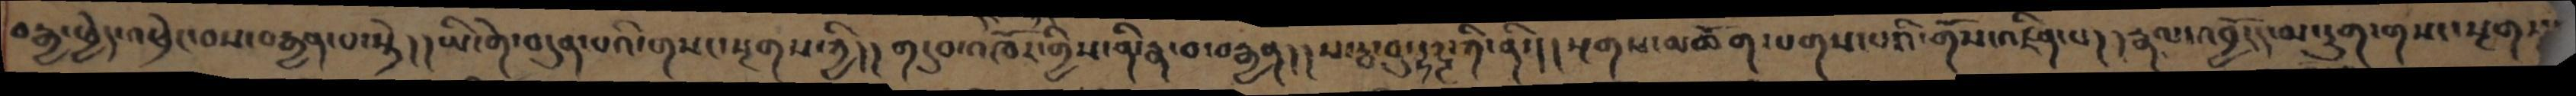བརྒྱ་ཕྱེད་འཕྲེང་བས་བརྒྱན་པ་སྟེ། །ཡི་གེ་བདུན་པའི་གསང་སྔགས་ཀྱི། །གདུབ་འཁོར་གྱིས་ནི་རྣ་བ་བརྒྱན། ། ས་རྦ་བུ་དྷཌྚ་ཀི་ནི་། །སྔགས་མཆོག་པགས་པའི་གོས་འཛིན་པ། །རྣལ་འབྱོརད་མ་དྲུག་གསང་སྔགས་
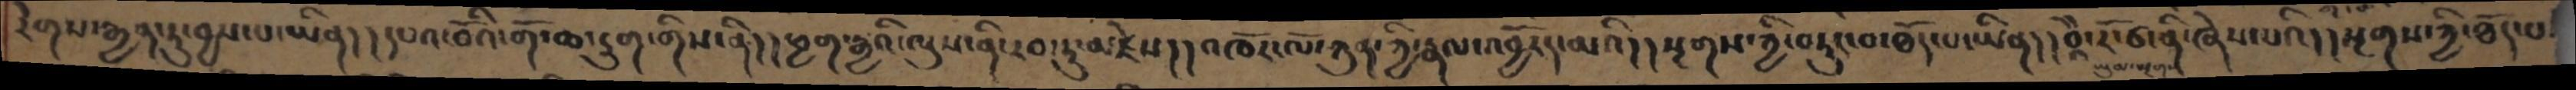རེགས་རྒྱན་ཏུ་བྱས་པ་ཡིན།། དཔའ་བོའི་གོ་ཆ་དྲུག་གིས་ནི།། ཕྱག་རྒྱའི་ལུས་ནི་རབ་ཏུ་མཛེས།། འཁོར་ལོ་ཀུན་ཀྱི་རྣལ་འབྱོརད་མའི།། སྔགས་ཀྱི་བཏུང་བ་ཐོད་པ་ཡིན།། བཱཻ་རོ་ཙ་ནི་ཞེས་པའི།། སྔགས་ཀྱི་ཐོད་པ་
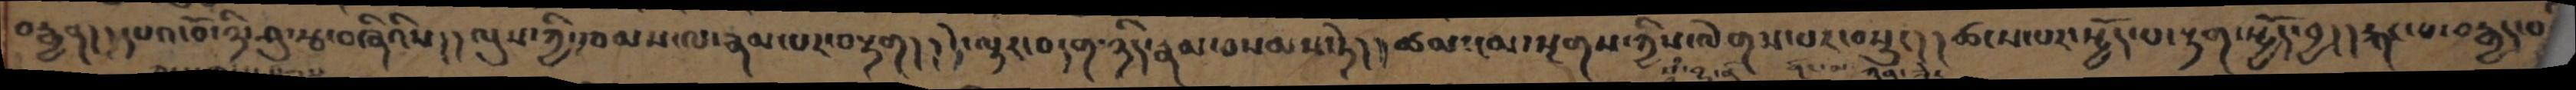བརྒྱན།། དཔའ་བོ་ཉི་ཤུ་རྩ་བཞིའིས།། ལུས་ཀྱི་ཁམས་ལ་རྣམ་པར་བརྟག།། དེ་ལྟར་བདག་ཉིད་རྣམ་བསམས་ཏེ།། ཚམ་ངམ་སྔགས་ཀྱིས་ལེགས་པར་བསྲུང།། ཚངས་པར་སྤྱོད་པ་རྟག་སྤྱོད་བྱ།། རྐང་པ་བརྒྱད་བ
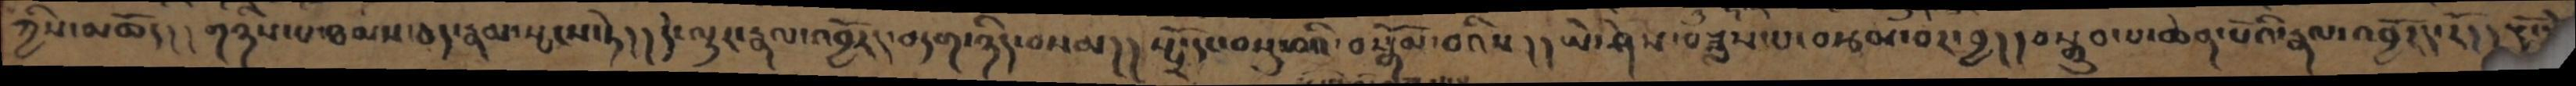ཀྱིས་མཆོད། །གཉིས་པ་ཐམས་ཅད་རྣམ་སྤངས་ཏེ།། དེ་ལྟར་རྣལ་འབྱོརད་བདག་ཉིད་བསམ།། སྤྲོ་དང་བསྡུ་བའི་བསྒོམ་བའིས།། ཡེ་ཤེས་བཟླས་པ་བརྩམ་པར་བྱ།། བསྒྲུབ་པ་ཆེན་པོའི་རྣལ་འབྱོརད་རོ།། རྡོ་རྗེ་
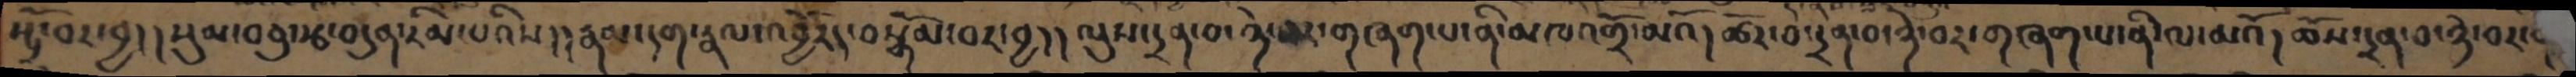སྤྲོ་བར་བྱ།། སུམ་བཅུ་རྩ་བདུན་རིམ་པའིས།། རྣམ་དག་རྣལ་འབྱོརད་བསྒོམ་བར་བྱ།། ལུས་དྲན་པ་ཉེ་བར་གཞག་པ་ནི་མཁའགྲོ་མའོ། ཚོར་བ་དྲན་པ་ཉེ་བར་གཞག་པ་ནི་ལ་མའོ། ཆོས་དྲན་པ་ཉེ་བར་
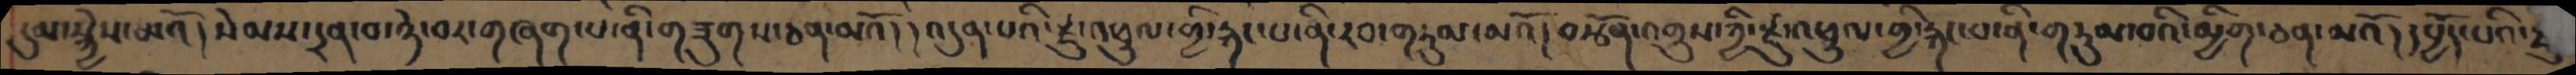དུམ་སྐྱེས་མའོ།སེམས་དྲན་བ་ཉེ་བར་གཞག་པ་ནི་གཟུགས་ཅན་མའོ།།འདུན་པའི་རྫུ་འཕྲུལ་གྱི་རྐང་པ་ནི་རབ་གཏུམ་མའོ།བརྩོན་འགྲུས་ཀྱི་རྫུ་འཕྲུལ་གྱི་རྐང་པ་ནི་གཏུམ་བའི་མྱིག་ཅན་མའོ།དཔྱོད་པའི་ཐུ
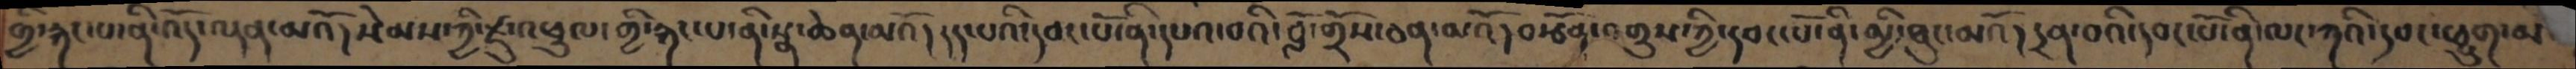གྱི་རྐང་པ་ནི་འོད་ལྡན་མའོ།སེམས་ཀྱི་རྫུ་འཕྲུལ་གྱི་རྐང་པ་ནི་སྣ་ཆེན་མའོ།དད་པའི་དབང་པོ་ནི་དཔའ་བའི་བློ་གྲོས་ཅན་མའོ།བརྩོན་འགྲུས་ཀྱི་དབང་པོ་ནི་མྱི་ཐུང་མའོ།དྲན་བའི་དབང་པོ་ནི་ལང་ཀའི་དབང་ཕྱུག་མ་
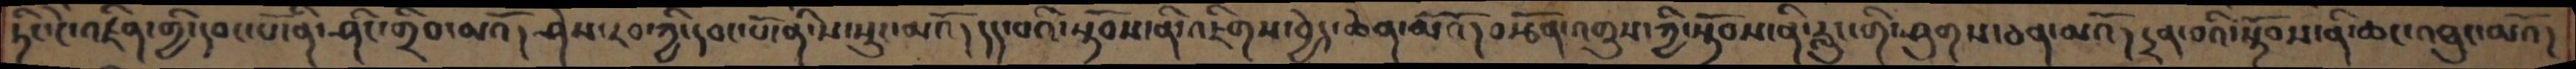ཏིང་ངེ་འཛིན་གྱི་དབང་པོ་ནི་ཤིང་གྲིབ་མའོ། ཤེས་རབ་ཀྱི་དབང་པོ་ནི་ས་སྲུང་མའོ། དད་པའི་སྟོབས་ནི་འཇིགས་བྱེད་ཆེན་མའོ།བརྩོན་འགྲུས་ཀྱི་སྟོབས་ནི་རླུང་གི་ཤུགས་ཅན་མའོ།དྲན་བའི་སྟོབས་ནི་ཆང་འཐུང་མའོ།
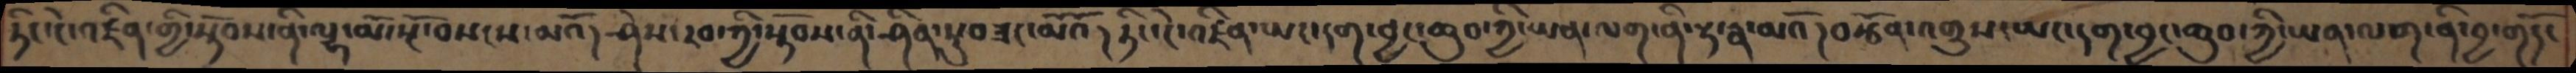ཏིང་ངེ་འཛིན་གྱི་སྟོབས་ནི་ལྷ་མོ་སྔོ་བསངས་མའོ། ཤེས་རབ་ཀྱི་སྟོབས་ནི་ཤིན་ཏུ་བཟང་མོའོ། ཏིང་ངེ་འཛིན་ཡང་དག་བྱང་ཆུབ་ཀྱི་ཡན་ལག་ནི་རྟ་རྣ་མའོ། བརྩོན་འགྲུས་ཡང་དག་བྱང་ཆུབ་ཀྱི་ཡན་ལག་ནི་བྱ་གདོང
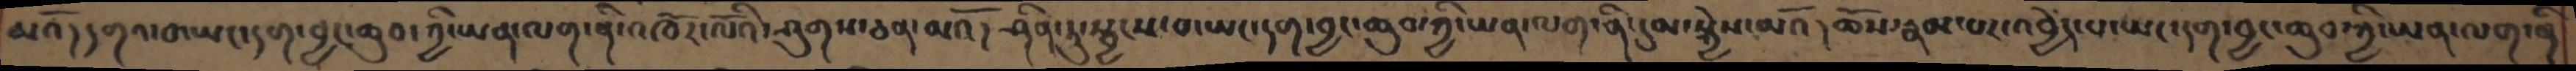མའོ། དགའ་བ་ཡང་དག་བྱང་ཆུབ་ཀྱི་ཡན་ལག་ནི་འཁོར་ལོའི་ཤུགས་ཅན་མའོ། ཤིན་ཏུ་སྦྱངས་བ་ཡང་དག་བྱང་ཆུབ་ཀྱི་ཡན་ལག་ནི་དུམ་སྐྱེས་མའོ། ཆོས་རྣམ་པར་འའབྱེད་པ་ཡང་དག་བྱང་ཆུབ་ཀྱི་ཡན་ལག་ནི་
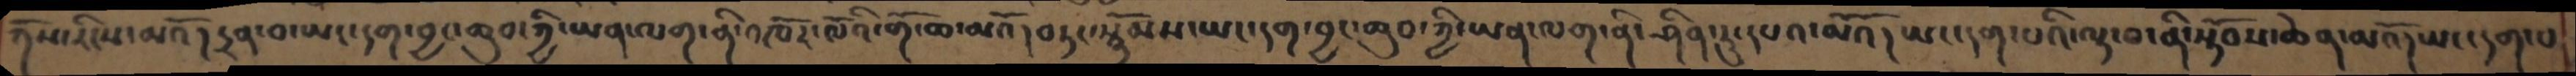ཀོས་རིངས་མའོ། དྲན་བ་ཡང་དག་བྱང་ཆུབ་ཀྱི་ཡན་ལག་ནི་འཁོར་ལོའི་གོ་ཆ་མའོ། བཏང་སྙོམས་ཡང་དག་བྱང་ཆུབ་ཀྱི་ཡན་ལག་ནི་ཤིན་ཏུ་དཔའ་མའོ། ཡང་དག་པའི་ལྟ་བ་ནི་སྟོབས་ཆེན་མའོ། ཡང་དག་པ་
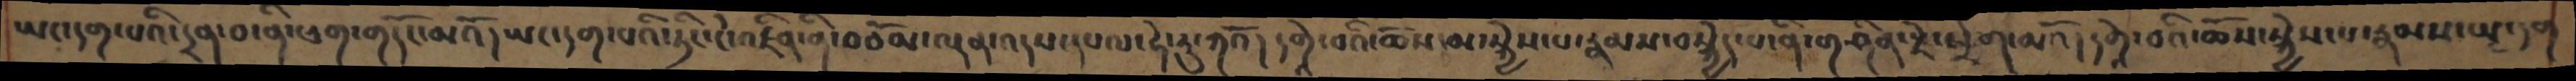ཡང་དག་པའི་དྲན་པ་ནི་ཕག་གདོང་མའོ། ཡང་དག་པའི་ཏིང་ངེ་འཛིན་ནི་བཅོམ་ལྡན་འདས་དཔལ་ཧེ་རུ་ཀའོ། དགེའ་བའི་ཆོས་མ་སྐྱེས་པ་རྣམས་བསྐྱེད་པ་ནི་གཤིན་རྗེ་ཕྲེག་མའོ། དགེའ་བའི་ཆོས་སྐྱེས་པ་རྣམས་ཡང་དག
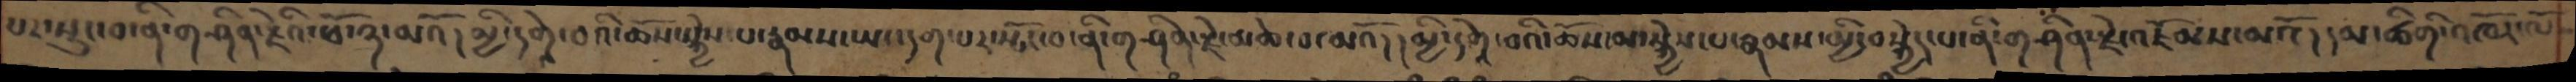པར་སྲུང་བ་ནི་གཤིན་རྗེའི་ཕོ་ཉ་མའོ། མྱི་དགེའ་བའི་ཆོས་སྐྱེས་པ་རྣམས་ཡང་དག་པར་སྤོང་བ་ནི་གཤིན་རྗེ་མཆེ་བ་མའོ།། མྱི་དགེའ་བའི་ཆོས་མ་སྐྱེས་པ་རྣམས་མྱི་བསྐྱེད་པ་ནི་གཤིན་རྗེ་འཇོམས་མའོ། དམ་ཚིགི་འཁོར་ལོ་
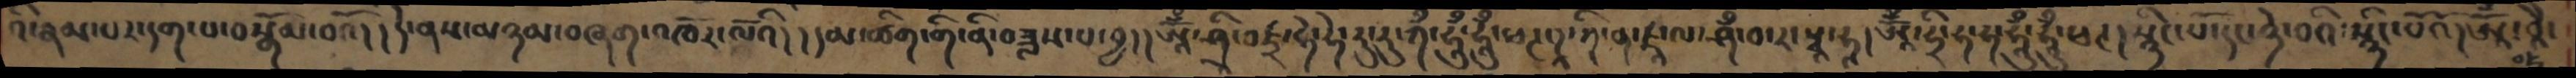འི་རྣམ་པར་དག་པ་བསྒོམ་བའོ། །དེ་ནས་མཉམ་བཞག་འཁོར་ལོའི། །དམ་ཚིག་གི་ནི་བཟླས་པ་བྱ། །ཨཱོྃ་ཤྲི་ཛྲ་ཧེ་ཧེ་རུ་རུ་ཀྃ་ཧཱུྃ་ཧཱུྃ་ཕཊ་ཌཱ་ཀི་ན་ཛཱ་ལ་ཤྃ་བ་ར་སྭཱ་ཧཱ།ཨཱོྃ་ཧྲི་ཧ་ཧ་ཧཱུྃ་ཧཱུྃ་ཕཊ།སྙིང་པོ་དང་ཉེ་བའི་སྙིང་པོའོ།ཨཱོྃ་བཱཻ་
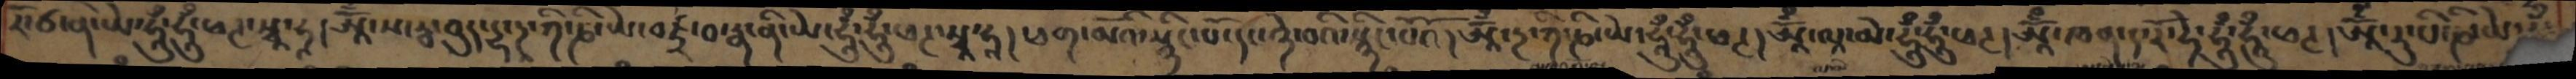རོ་ཙ་ནི་ཡེ་ཧཱུྃ་ཧཱུྃ་ཕཊ་སྭཱ་ཧཱ། ཨཱོྃ་ས་རྦ་བུད་དྷ་ཌཱ་ཀི་ཎི་ཡེ་བཛྲ་བ་རྣ་ནི་ཡེ་ཧཱུཾ་ཧཱུྃ་ཕཊ་སྭཱ་ཧཱ། ཕག་མོའི་སྙིང་པོ་དང་ཉེ་བའི་སྙིང་པོའོ། ཨཱོྃ་ཌ་ཀི་ཎི་ཡེ་ཧཱུྃ་ཧཱུྃ་ཕཊ། ཨཱོྃ་ལཱ་མེ་ཧཱུྃ་ཧཱུྃ་ཕཊ། ཨཱོྃ་ཁན་ད་རོ་ཧེ་ཧཱུྃ་ཧཱུཾ་ཕཊ།  ཨཱོྃ་རུ་པི་ཎི་ཡེ་ཧཱུྃ
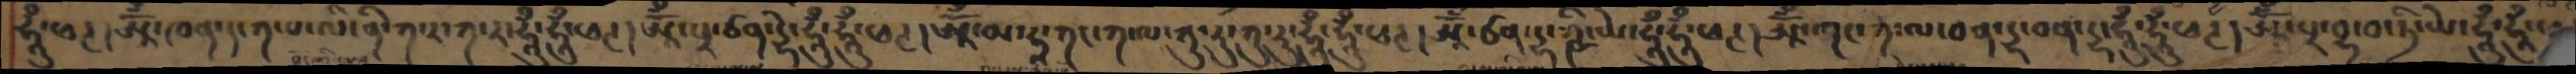ཧཱུྃ་ཕཊ། ཨཱོྃ་ཁན་ད་ཀ་པ་ལི་ནི་ཀ་ར་ཀ་ར་ཧཱུྃ་ཧཱུྃ་ཕཊ། ཨཱོྃ་པྲ་ཙན་དྷེ་ཧཱུྃ་ཧཱུྃ་ཕཊ།  ཨཱོྃ་མ་ཧཱ་ཀང་ཀ་ལ་ཀུ་རུ་ཀུ་རུ་ཧཱུྃ་ཧཱུྃ་ཕཊ། ཨཱོྃ་ཙན་དྷ་ཀྵི་ཡེ་ཧཱུྃ་ཧཱུྃ་ཕཊ། ཨཱོྃ་ཀང་ཀ་ལ་བན་དྷ་བྷན་དྷ་ཧཱུྃ་ཧཱུྃ་ཕཊ། ཨཱོྃ་པྲ་བྷ་བ་ཏི་ཡེ་ཧཱུྃ་ཧཱུྃ་ཕཊ
